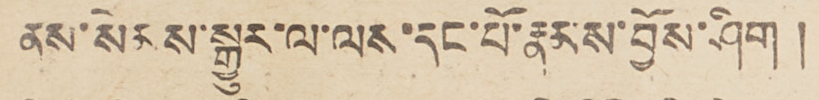ནས་སེམས་སྒྱུར་ལ་ལས་དང་པོ་རྣམས་བྱོས་ཤིག །
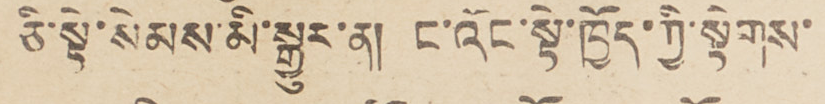ཅི་སྟེ་སེམས་མི་སྒྱུར་ན། ང་འོང་སྟེ་ཁྱོད་ཀྱི་སྟེགས་
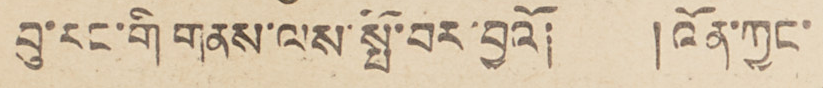བུ་རང་གི གནས་ལས་སྤོ་བར་བྱའོ། །འོན་ཀྱང་
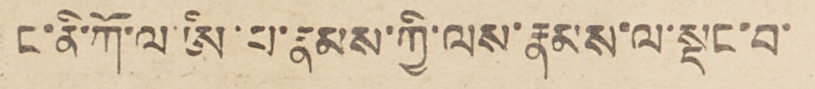ང་ནི་ཀོ་ལ་ཨི་པ་རྣམས་ཀྱི་ལས་རྣམས་ལ་སྡང་བ་
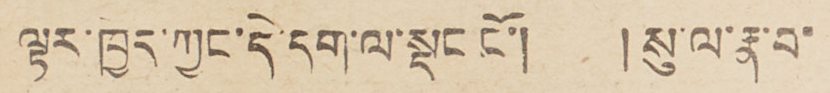ལྟར་ཁྱད་ཀྱང་དེ་དག་ལ་སྡང ངོ་།    །སུ་ལ་རྣ་བ་
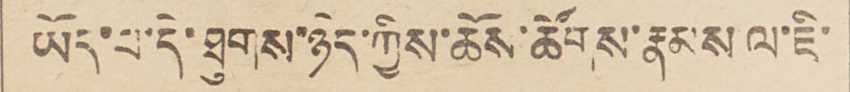ཡོད་པ་དེ་ཐུགས་ཉེད་ཀྱིས་ཆོས་ཚོགས་རྣམས ལ་ཇི་
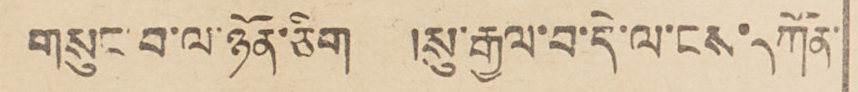གསུང་བ་ལ་ཉོན་ཅིག   །སུ་རྒྱལ་བ་དེ་ལ་ངས་དཀོན་
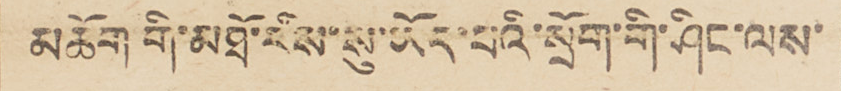མཆོག གི་མཐོ་རིས་སུ་ཡོད་པའི་སྲོག་གི་ཤིང་ལས་
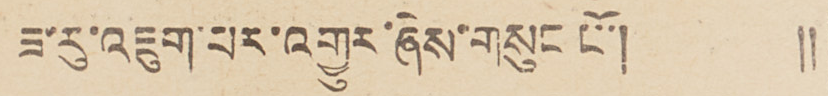ཟ་རུ་འཇུག་པར་འགྱུར་ཞེས་གསུང ངོ་། །།
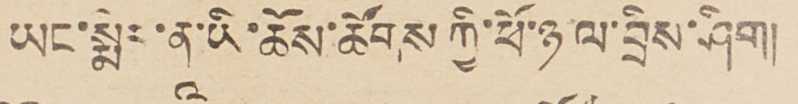ཡང་སྨེར་ནཱ་ཡི་ཆོས་ཚོགས་ཀྱི་ཕོ་ཉ་ལ་བྲིས་ཤིག།
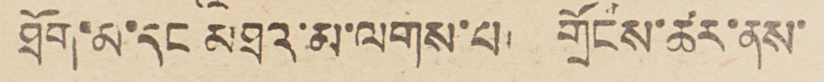ཐོག་མ་དང་མཐའ་མ་ལགས་པ།   གྲོངས་ཚར་ནས་
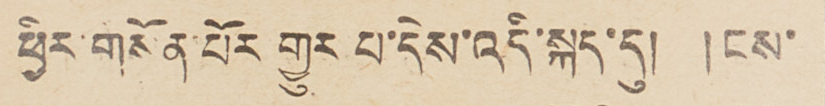ཕྱིར་གསོན་པོར གྱུར པ་དེས་འདི་སྐད་དུ།   །ངས་
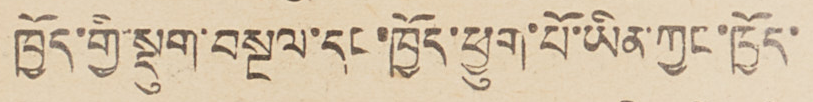ཁྱོད་གྱི་སྡུག་བསྔལ་དང་ཁྱོད་ཕྱུག་པོ་ཡིན་ཀྱང་ཁྱོད་
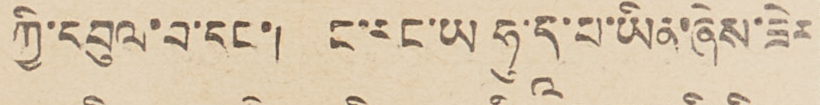ཀྱི་དབུལ་བ་དང་།  ང་རང་ཡ ཧུ་དཱ་པ་ཡིན་ཞེས་ཟེར
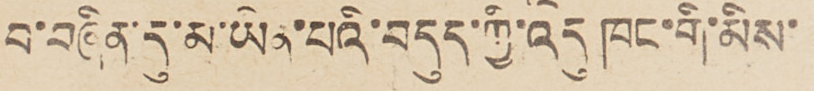བ་བཞིན་དུ་མ་ཡིན་པའི་བདུད་ཀྱི་འདུ ཁང་གིུ་མིས་
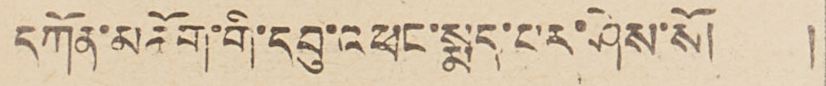དཀོན་མཆོག་གི་དབུ་འཕང་སྨད་པར་ཤེས་སོ།     །
